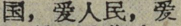国，爱人民，爱
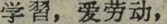学習，爱劳动，
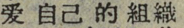爱自己的組織
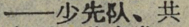——少先队、共
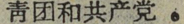靑团和共产党。
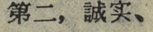第二，誠实、
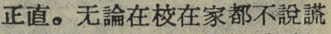正直。无論在校在家都不說謊
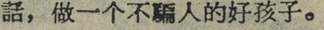話，做一个不騙人的好孩子。
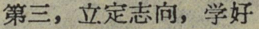第三，立定志向，学好
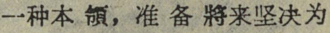一种本領，准备 將来坚决为
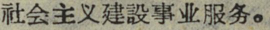社会主义建設事业服务。
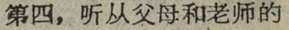第四，听从父母和老师的
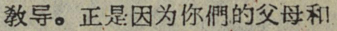敎导。正是因为你們的父母和
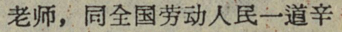老师，同全国劳动人民一道辛
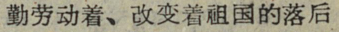勤劳动着、改变着祖国的落后
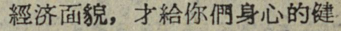經济面貌，才給你們身心的健
